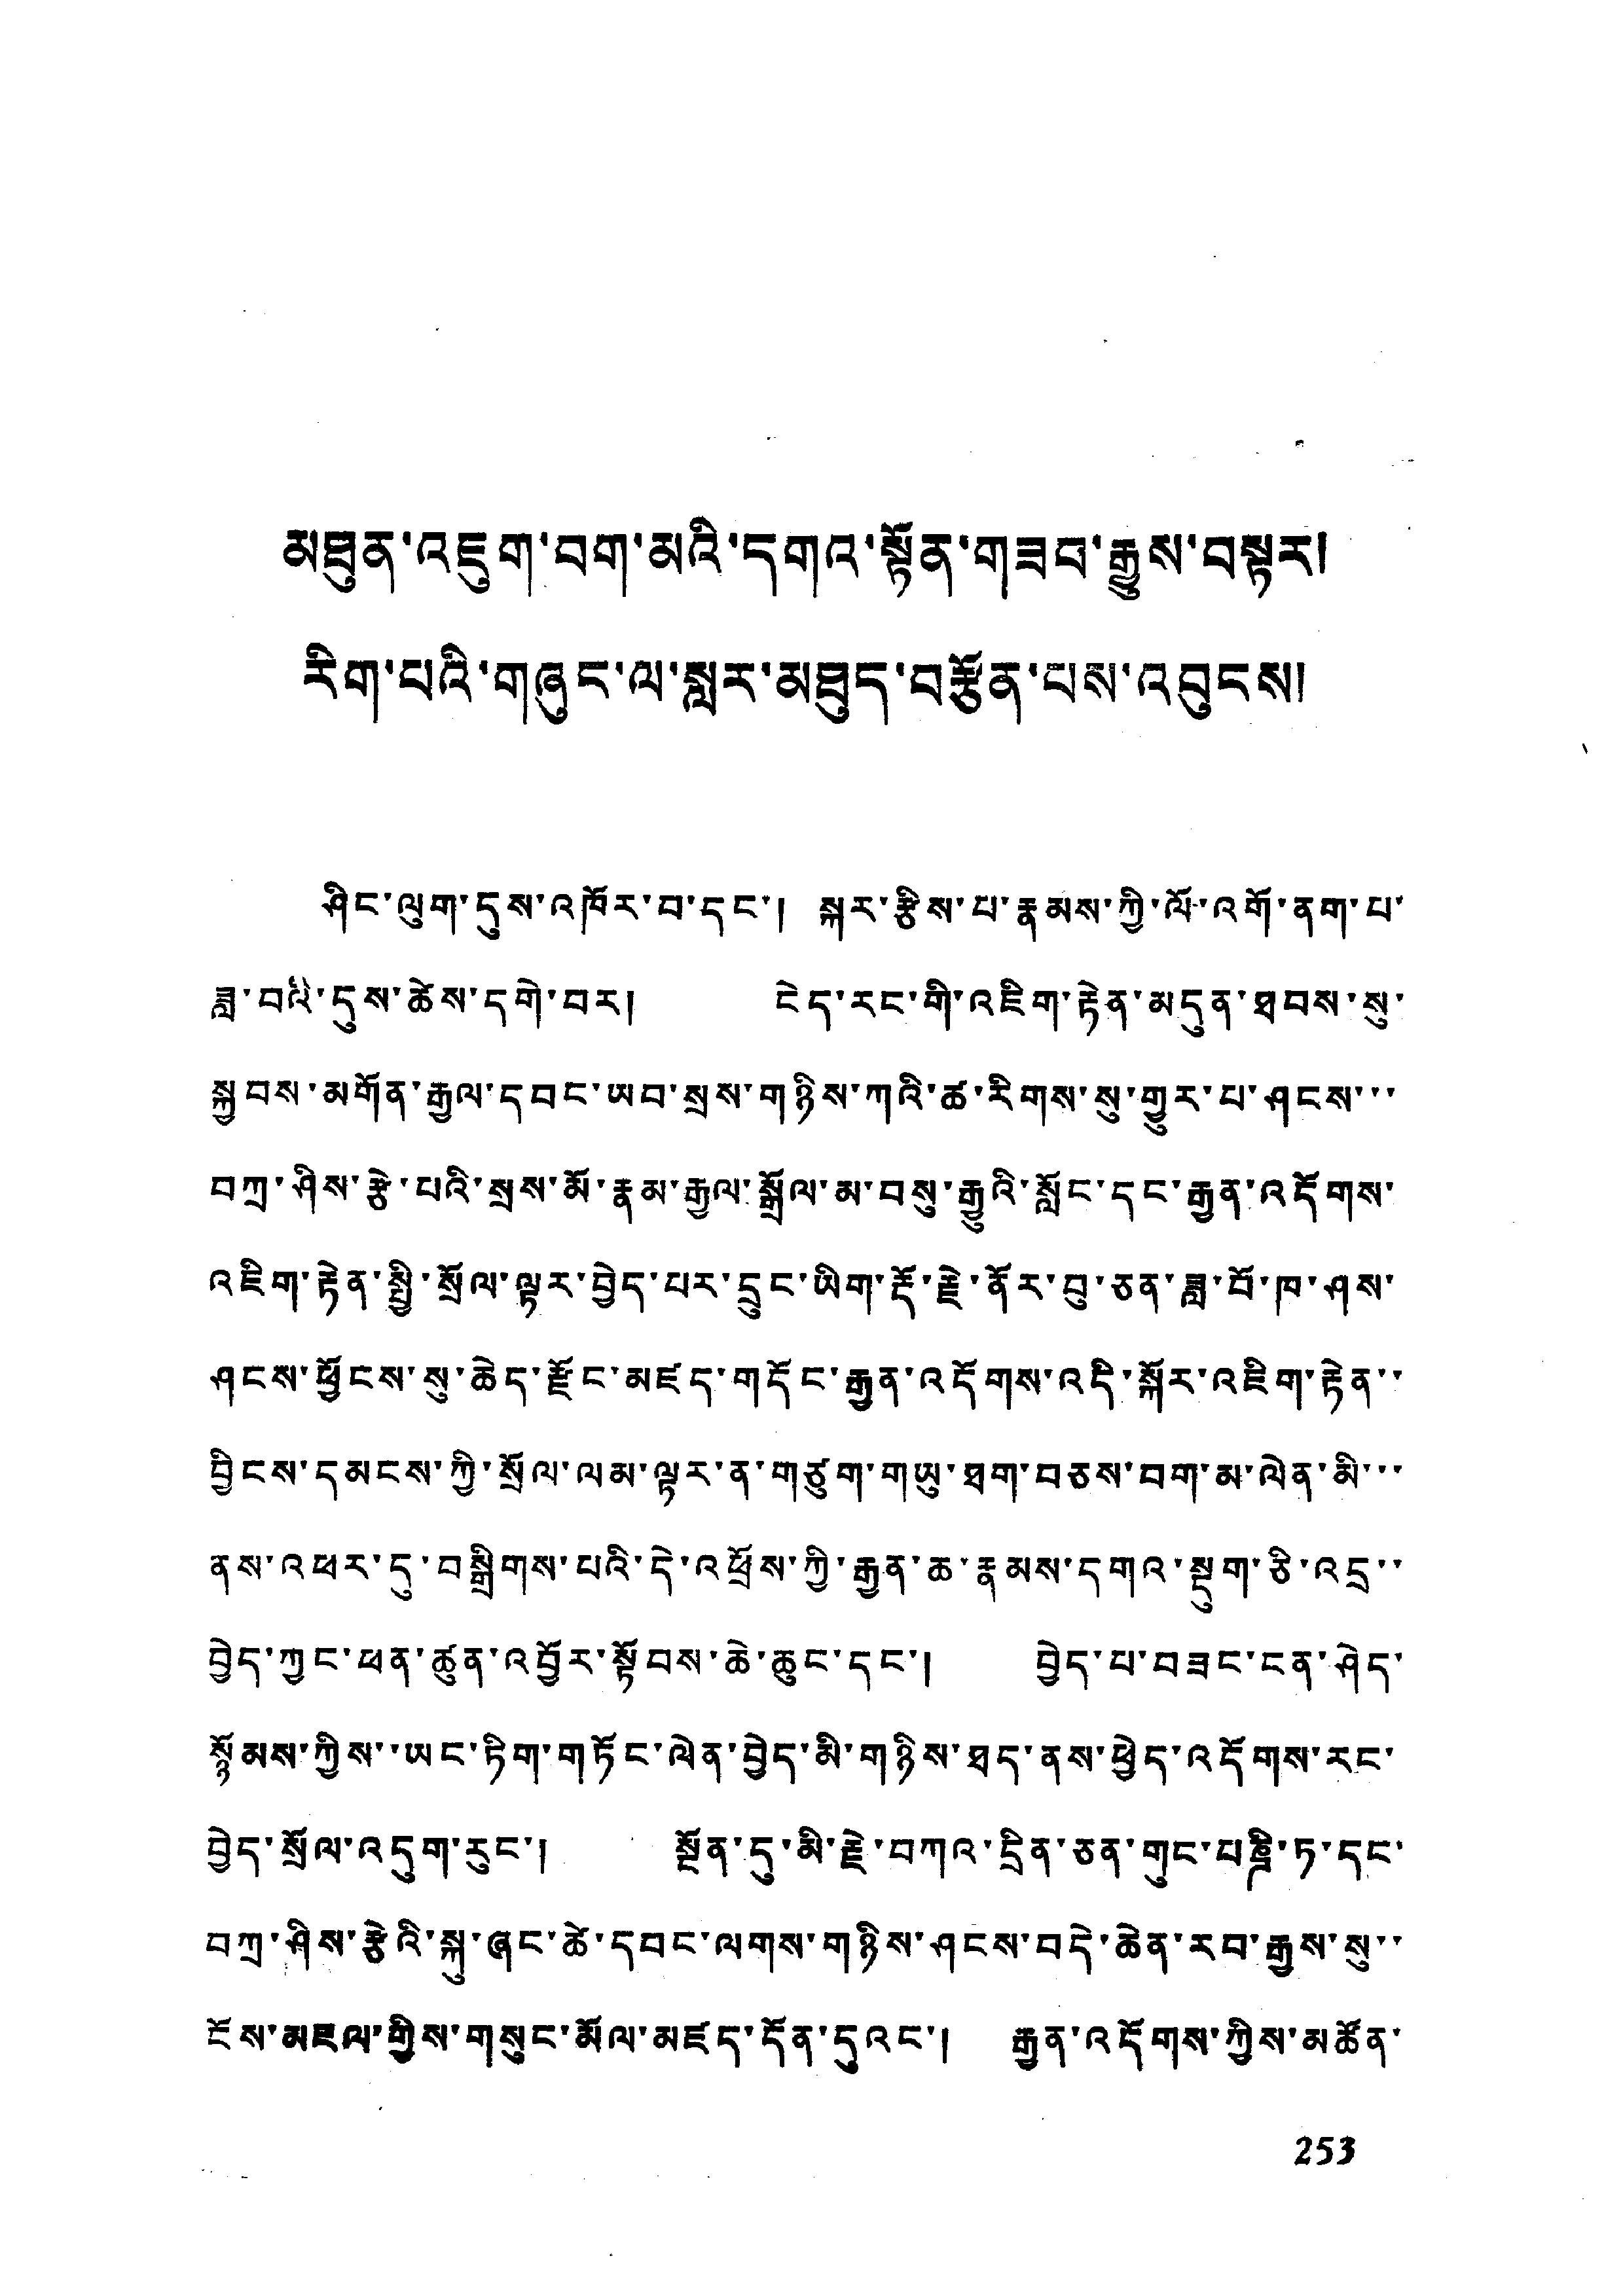མཐུན་འཇུག་བག་མའི་དགའ་སྟོན་གཟབ་རྒྱུས་བསྟར།
རིག་པའི་གཞུང་ལ་སླར་མཐུད་བརྩོན་པས་འབུངས།
ཤིང་ལུག་དུས་འཁོར་བ་དང་། སྐར་རྩིས་པ་རྣམས་ཀྱི་ལོ་འགོ་ནག་པ་
ཟླ་བའི་དུས་ཚེས་དགེ་བར། ངེད་རང་གི་འཇིག་རྟེན་མདུན་ཐབས་སུ་
སྐྱབས་མགོན་རྒྱལ་དབང་ཡབ་སྲས་གཉིས་ཀའི་ཚ་རིགས་སུ་གྱུར་པ་ཤངས་་་
བཀྲ་ཤིས་རྩེ་པའི་སྲས་མོ་རྣམ་རྒྱལ་སྒྲོལ་མ་བསུ་རྒྱུའི་སློང་དང་རྒྱན་འདོགས་
འཇིག་རྟེན་སྤྱི་སྲོལ་ལྟར་བྱེད་པར་དྲུང་ཡིག་རྡོ་རྗེ་ནོར་བུ་ཅན་ཟླ་བོ་ཁ་ཤས་
ཤངས་ཕྱོངས་སུ་ཆེད་རྫོང་མཛད་གདོང་རྒྱན་འདོགས་འདི་སྐོར་འཇིག་རྟེན་་
བྱིངས་དམངས་ཀྱི་སྲོལ་ལམ་ལྟར་ན་གཙུག་གཡུ་ཐག་བཅས་བག་མ་ལེན་མི་་་
ནས་འཕར་དུ་བསྒྲིགས་པའི་དེ་འཕྲོས་ཀྱི་རྒྱན་ཆ་རྣམས་དགའ་སྡུག་ཅི་འདྲ་་
བྱེད་ཀྱང་ཕན་ཚུན་འབྱོར་སྟོབས་ཆེ་ཆུང་དང་། བྱེད་པ་བཟང་ངན་ཤེད་
སྙོམས་ཀྱིས་ཡང་ཏིག་གཏོང་ལེན་བྱེད་མི་གཉིས་ཐད་ནས་ཕྱེད་འདོགས་རང་
བྱེད་སྲོལ་འདུག་རུང་། སྔོན་དུ་མི་རྗེ་བཀའ་དྲིན་ཅན་གུང་པཎྜི་ཏ་དང་
བཀྲ་ཤིས་རྩེའི་སྐུ་ཞང་ཚེ་དབང་ལགས་གཉིས་ཤངས་བདེ་ཆེན་རབ་རྒྱས་སུ་་
ངོས་མཇལ་གྱིས་གསུང་མོལ་མཛད་དོན་དུའང་། རྒྱན་འདོགས་ཀྱིས་མཚོན་
253
